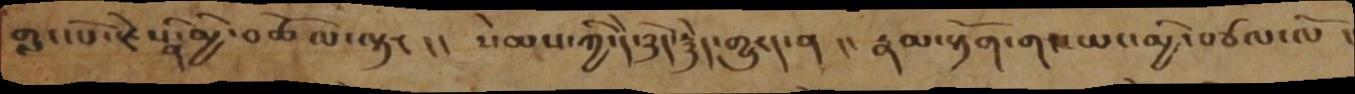གླང་པོ་རྗེས་ནི་མྱི་བཚོལ་ལྟར།། སེམས་ཀྱི་དེ་ཉིད་རྙེད་གྱུརད་ན།། རྣམ་རྟོག་གང་ཡང་མྱི་བཙལ་ལོ །
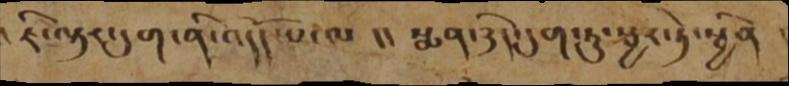། ཇི་ལྟར་དུག་ནི་འདོད་པ་ལ །། སྨན་ཉིད་དུག་ཏུ་སྦྱར་ཏེ་སྦྱིན །
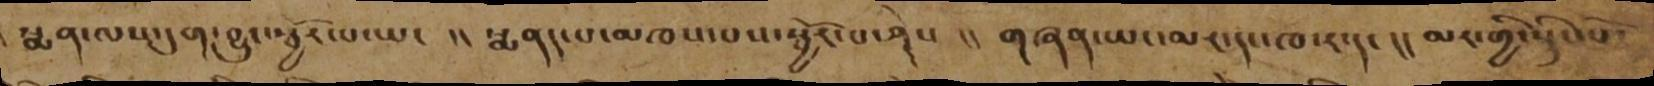སྨན་ལས་དུག་བྱུང་སྦྱོར་པ་ཡང །། སྨནད་པ་མཁས་པས་སྦྱོར་པ་ཤེས །། གཞན་ཡང་མར་དང་ཁ་ར་དང །། མར་གྱི་སྙིང་པོ་
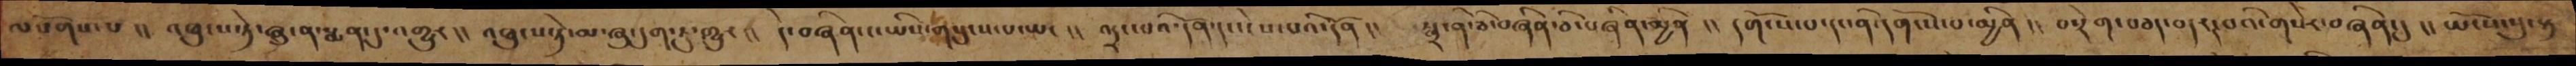ལསོགས་པ །། འཕུངས་ཏེ་ཞུ་ན་སྨན་དུ་འགྱུར།། འཕུངས་ཏེ་མ་ཞུ་དུག་ཏུ་གྱུར།། དེ་བཞིན་ང་ཡིས་གསུངས་པ་ཡང །། འདྲང་བའི་དོན་དང་ངེས་པའི་དོན།། སྒྲ་ནི་ཅི་བཞིན་ཅི་བཞིན་མྱིན །། དགོངས་པ་དང་ནི་དགོངས་པ་མྱིན།། བསྲེག་བཅད་བདར་བའི་གསེར་བཞིན་དུ།། ཡོངས་སུ་རྟ
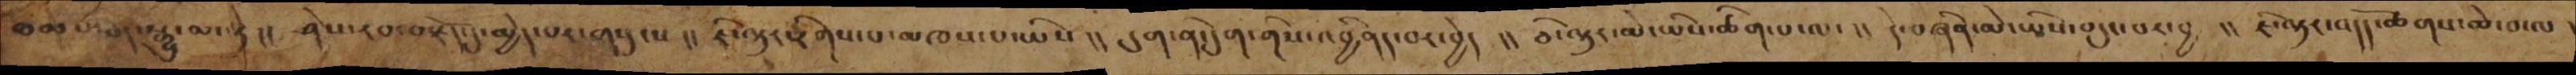ཐམས་ཅད་སྒྱུ་མ་ཏེ།། ཤེས་རབ་བརྗོད་དུ་མྱེད་པར་གསུངས།། ཇི་ལྟར་རིགས་པ་མཁས་པ་ཡིས །། དུག་ནི་དུག་གིས་འབྱིནད་བར་བྱེད །། ཅི་ལྟར་མེ་ཡིས་ཚིག་པ་ལ་།། དེ་བཞིན་མེ་ཡིས་བདུང་པར་བྱ །། ཇི་ལྟར་འདོད་ཆགས་ཆེ་བ་ལ །
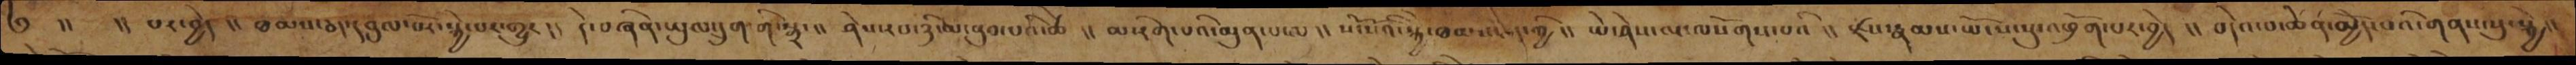༄  །།  །། པར་བྱེད །། ཐམས་ཅད་དབུལ་པོར་སྐྱེ་པར་གྱུར །། དེ་བཞིན་ཡུལ་དྲུག་གི་སྒྲ་ །། ཤེས་རབ་ཉི་མ་ནུབ་པའི་ཚེ །། མ་རིག་པའི་མུན་པ་ལ །། སོ་སོའི་སྐྱེ་ཐམས་ཅད་ཀྱི །། ཡེ་ཤེས་ལྔ་ལསོགས་པའི །། རྫས་རྣམས་ཡོངས་སུ་འཕྲོག་པར་བྱེད །། བདེའ་བ་ཆེན་མྱེད་པའི་གནས་སུ་སྐྱེ །།
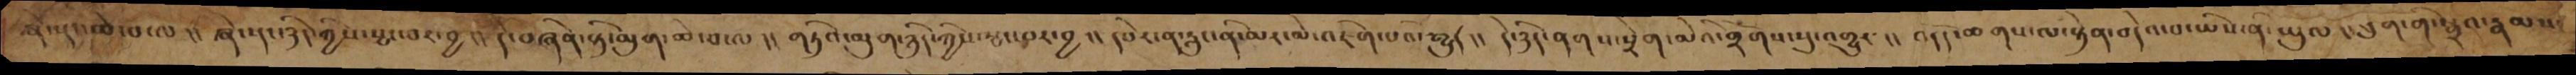ཞེ་སྡང་ཆེ་བ་ལ།། ཞེ་སྡང་ཉིད་ཀྱིས་སྤང་བར་བྱ། །དེ་བཞིན་སྟི་མུག་ཆེ་བ་ལ།། གཏིའ་མུག་ཉིད་ཀྱིས་སྤང་བར་བྱ།།དཔེར་ན་རླུང་ནི་མར་མེ་འཇིག་པའི་རྒྱུར།། དེ་ཉིད་ནགས་སྲེག་མེའི་གྲོགས་སུ་འགྱུར།། འདོད་ཆགས་ལ་སྟེན་བདེའ་བ་ཡིས་ནི་ཡུལ་།།ཕུག་གི་སྒྲའ་རྣམས་
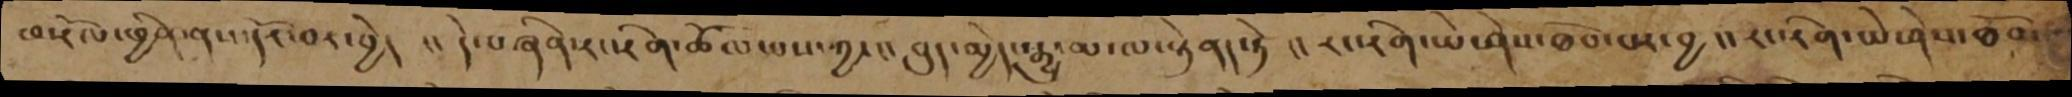ཕ་རོལ་ཕྱིན་ནས་དོར་བར་བྱེད  །། དེ་བཞིན་རང་རིག་ཚོམ་པས་ཀྱང །། བུད་མེད་སྒྱུ་མ་ལ་རྟེནད་ཏེ །། རང་རིག་ཡེ་ཤེས་ཐོབ་པར་བྱ །། རང་རིག་ཡེ་ཤེས་ཐོབ་
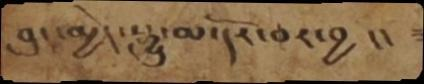བུད ་མྱེད་སྒྱུ་མ་དོར་བར་བྱ །།
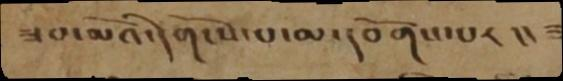ཟབ་མོའི་དགོངས་པ་མ་དབོགས་པར །།
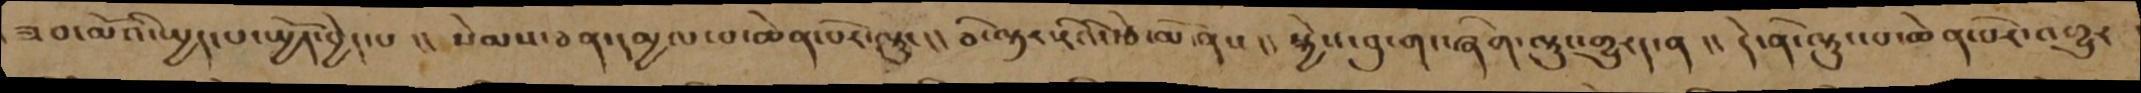ཟབ་མོའི་སྤྱད་པ་སྤྱོད་བྱེད་པ །། སེམས་ཅན་དམྱལ་བ་ཆེན་པོར་ལྟུང །། ཅི་ལྟར་རིའི་རྩེ་མོ་ནས །། སྐྱེས་བུ་གང་ཞིག་ལྟུང་གྱུུརད་ན །། དེ་ནི་ལྟུང་པ་ཆེན་པོར་འགྱུར
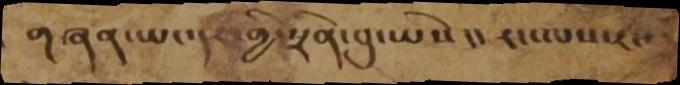གཞན་ཡང་དར་གྱི་སྲིན་པུ་ཡིས །། རང་ལས་རང་
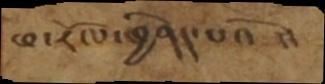ཕ་རོལ་ཕྱིནད་པའོ །།
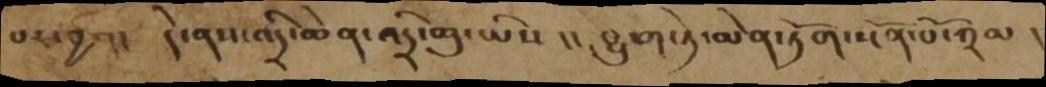པར་བྱ །  དེ་ནས་འདྲི་ཆེན་འདྲི་ཆུ་ཡིས །། བྱུག་ཏེ་མེན་ཏོག་སྔོན་པོ་ཀྲམ །
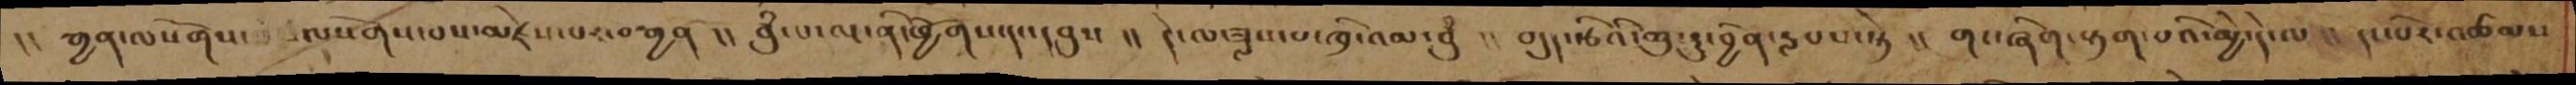།། རྒྱན་ལསོགས་  ལསོགས་པས་མཛེས་པར་བརྒྱན །། བུཾ་པ་ལ་ནི་ཕྱོགས་དང་དབུས །། དེ་ལ་ཟླས་པ་ཁྲི་འམ་བུཾ །། བདུད་རྩིའི་ཆུ་རུ་བྱིན་རླབས་སྟེ །། གང་ཞིག་རྟག་པའི་མྱི་དེ་ལ །། དང་པོར་འཚམས
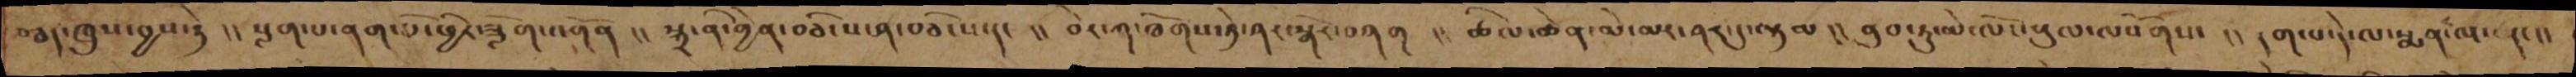བཅད་ཁྲུས་བྱས་སྟེ །། སླག་པ་ནག་པོ་ཕྱིར་ཟློག་འགོན །། སྐྲ་ནི་གྱེན་བཅིངས་ཤ་བཅིངས་དང །། བེར་ཀ་ཐོགས་ཏེ་ཤར་སྒོར་བཤག །། ཚིལ་ཆེན་མེ་མར་ཤར་དུ་ལྟམ །། ནུབ་དཏུ་མེ་ལོང་ཕུལ་ལསོགས་ །། རག་པ་དེ་ལ་སྨན་ལ་དང །།
